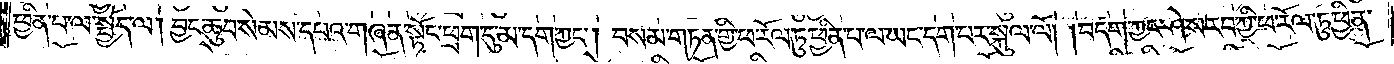ཕྱིན་པ་ལ་སྤྱོད་ལ། བྱང་ཆུབ་སེམས་དཔའ་གཞན་སྟོང་ཕྲག་དུ་མ་དག་ཀྱང༌། བསམ་གཏན་གྱི་ཕ་རོལ་ཏུ་ཕྱིན་པ་ལ་ཡང་དག་པར་སྐུལ་ལོ། །བདག་ཀྱང་ཤེས་རབ་ཀྱི་ཕ་རོལ་ཏུ་ཕྱིན་
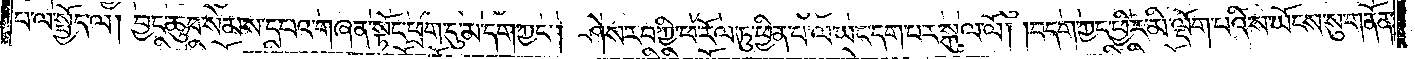པ་ལ་སྤྱོད་ལ། བྱང་ཆུབ་སེམས་དཔའ་གཞན་སྟོང་ཕྲག་དུ་མ་དག་ཀྱང༌། ཤེས་རབ་ཀྱི་ཕ་རོལ་ཏུ་ཕྱིན་པ་ལ་ཡང་དག་པར་སྐུལ་ལོ། །བདག་ཀྱང་ཕྱིར་མི་ལྡོག་པའི་ས་ཡོངས་སུ་གནོན་
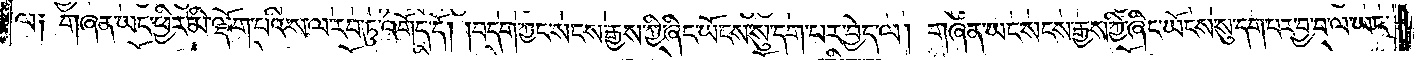ལ༑ གཞན་ཡང་ཕྱིར་མི་ལྡོག་པའི་ས་ལ་རབ་ཏུ་འགོད་དོ། །བདག་ཀྱང་སངས་རྒྱས་ཀྱི་ཞིང་ཡོངས་སུ་དག་པར་བྱེད་ལ། གཞན་ཡང་སངས་རྒྱས་ཀྱི་ཞིང་ཡོངས་སུ་དག་པར་བྱ་བ་ལ་ཡང་
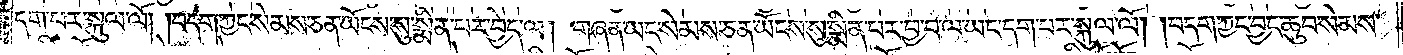དག་པར་སྐུལ་ལོ། །བདག་ཀྱང་སེམས་ཅན་ཡོངས་སུ་སྨིན་པར་བྱེད་ལ། གཞན་ཡང་སེམས་ཅན་ཡོངས་སུ་སྨིན་པར་བྱ་བ་ལ་ཡང་དག་པར་སྐུལ་ལོ། །བདག་ཀྱང་བྱང་ཆུབ་སེམས་
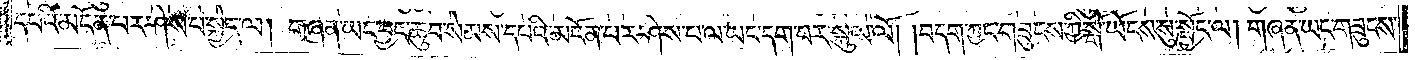དཔའི་མངོན་པར་ཤེས་པ་སྐྱེད་ལ། གཞན་ཡང་བྱང་ཆུབ་སེམས་དཔའི་མངོན་པར་ཤེས་པ་ལ་ཡང་དག་པར་སྐུལ་ལོ། །བདག་ཀྱང་གཟུངས་ཀྱི་སྒོ་ཡོངས་སུ་སྤྱོད་ལ། གཞན་ཡང་གཟུངས་
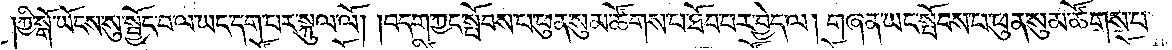ཀྱི་སྒོ་ཡོངས་སུ་སྤྱོད་བ་ལ་ཡང་དག་པར་སྐུལ་ལོ། །བདག་ཀྱང་སྤོབས་པ་ཕུན་སུམ་ཚོགས་པ་ཐོབ་པར་བྱེད་ལ། གཞན་ཡང་སྤོབས་པ་ཕུན་སུམ་ཚོགས་པ་
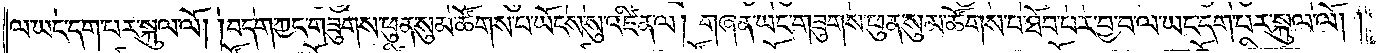ལ་ཡང་དག་པར་སྐུལ་ལོ། །བདག་ཀྱང་གཟུགས་ཕུན་སུམ་ཚོགས་པ་ཡོངས་སུ་འཛིན་ལ། གཞན་ཡང་གཟུགས་ཕུན་སུམ་ཚོགས་པ་ཐོབ་པར་བྱ་བ་ལ་ཡང་དག་པར་སྐུལ་ལོ། །
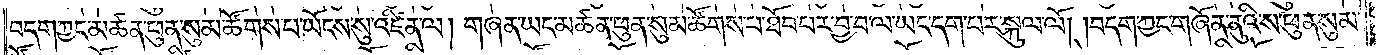བདག་ཀྱང་མཚན་ཕུན་སུམ་ཚོགས་པ་ཡོངས་སུ་འཛིན་ལ། གཞན་ཡང་མཚན་ཕུན་སུམ་ཚོགས་པ་ཐོབ་པར་བྱ་བ་ལ་ཡང་དག་པར་སྐུལ་ལོ། །བདག་ཀྱང་གཞོན་ནུའི་ས་ཕུན་སུམ་
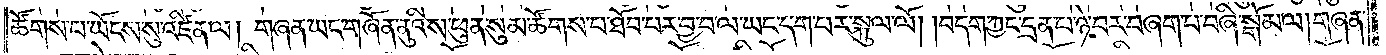ཚོགས་པ་ཡོངས་སུ་འཛིན་ལ། གཞན་ཡང་གཞོན་ནུའི་ས་ཕུན་སུམ་ཚོགས་པ་ཐོབ་པར་བྱ་བ་ལ་ཡང་དག་པར་སྐུལ་ལོ། །བདག་ཀྱང་དྲན་པ་ཉེ་བར་བཞག་པ་བཞི་སྒོམ་ལ། གཞན་
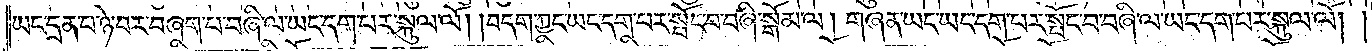ཡང་དྲན་པ་ཉེ་བར་བཞག་པ་བཞི་ལ་ཡང་དག་པར་སྐུལ་ལོ། །བདག་ཀྱང་ཡང་དག་པར་སྤོང་བ་བཞི་སྒོམ་ལ། གཞན་ཡང་ཡང་དག་པར་སྤོང་བ་བཞི་ལ་ཡང་དག་པར་སྐུལ་ལོ། །
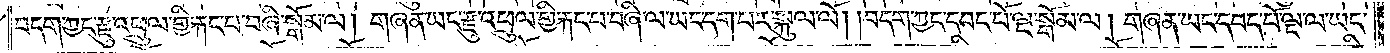བདག་ཀྱང་རྫུ་འཕྲུལ་གྱི་རྐང་པ་བཞི་སྒོམ་ལ། གཞན་ཡང་རྫུ་འཕྲུལ་གྱི་རྐང་པ་བཞི་ལ་ཡང་དག་པར་སྐུལ་ལོ། །བདག་ཀྱང་དབང་པོ་ལྔ་སྒོམ་ལ། གཞན་ཡང་དབང་པོ་ལྔ་ལ་ཡང་
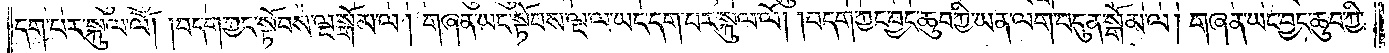དག་པར་སྐུལ་ལོ། །བདག་ཀྱང་སྟོབས་ལྔ་སྒོམ་ལ། གཞན་ཡང་སྟོབས་ལྔ་ལ་ཡང་དག་པར་སྐུལ་ལོ། །བདག་ཀྱང་བྱང་ཆུབ་ཀྱི་ཡན་ལག་བདུན་སྒོམ་ལ། གཞན་ཡང་བྱང་ཆུབ་ཀྱི་
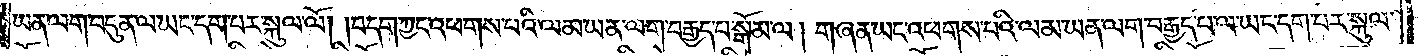ཡན་ལག་བདུན་ལ་ཡང་དག་པར་སྐུལ་ལོ། །བདག་ཀྱང་འཕགས་པའི་ལམ་ཡན་ལག་བརྒྱད་པ་སྒོམ་ལ། གཞན་ཡང་འཕགས་པའི་ལམ་ཡན་ལག་བརྒྱད་པ་ལ་ཡང་དག་པར་སྐུལ་
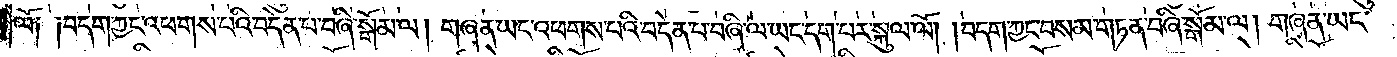ལོ༑ ༑བདག་ཀྱང་འཕགས་པའི་བདེན་པ་བཞི་སྒོམ་ལ། གཞན་ཡང་འཕགས་པའི་བདེན་པ་བཞི་ལ་ཡང་དག་པར་སྐུལ་ལོ། །བདག་ཀྱང་བསམ་གཏན་བཞི་སྒོམ་ལ། གཞན་ཡང་
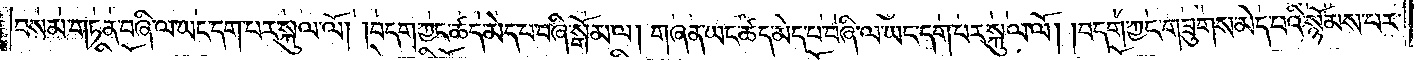བསམ་གཏན་བཞི་ལ་ཡང་དག་པར་སྐུལ་ལོ། །བདག་ཀྱང་ཚད་མེད་པ་བཞི་སྒོམ་ལ། གཞན་ཡང་ཚད་མེད་པ་བཞི་ལ་ཡང་དག་པར་སྐུལ་ལོ། །བདག་ཀྱང་གཟུགས་མེད་པའི་སྙོམས་པར་
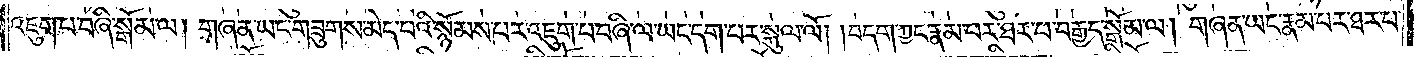འཇུག་པ་བཞི་སྒོམ་ལ། གཞན་ཡང་གཟུགས་མེད་པའི་སྙོམས་པར་འཇུག་པ་བཞི་ལ་ཡང་དག་པར་སྐུལ་ལོ། །བདག་ཀྱང་རྣམ་པར་ཐར་པ་བརྒྱད་སྒོམ་ལ། གཞན་ཡང་རྣམ་པར་ཐར་པ་
